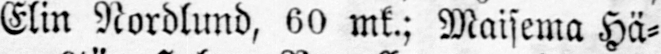Elin Nordlund, 60 mk.; Maisema Hä-
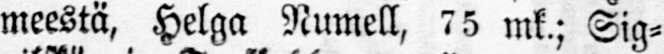meestä, Helga Numell, 75 mk.; Sig-
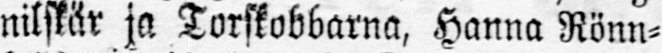nilskär ja Torskobbarna, Hanna Rönn-
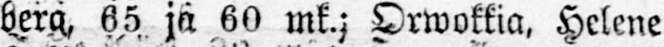berg, 65 ja 60 mk.; Orwokkia, Helene
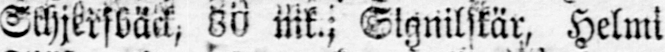Schjerfbäck, 80 mk.; Slgnilskär, Helmi
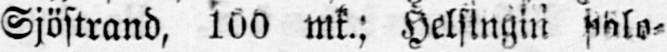Sjöstrand, 100 mk.; Helslngin palo-
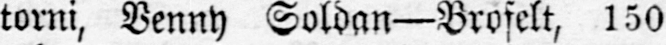torni, Venny Soldan —Brofelt, 150
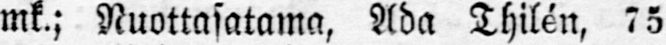mk.; Nuottasatama, Ada Thilén, 75
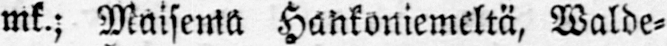mk.; Maisema Hankoniemeltä, Walde-
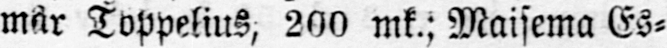mar Toppelius, 200 mk.; Maisema Es-
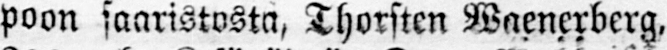poon saaristosta, Thorsten Waenerberg,
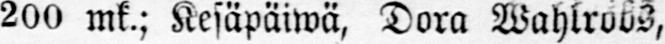200 mk.; Kesäpäiwä, Dora Wahlroos,
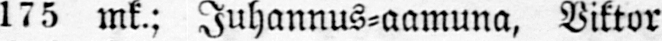175 mk.; Juhannus-aamuna, Viktor
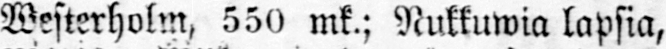Westerholm, 550 mk.; Nukkuwia lapsia,
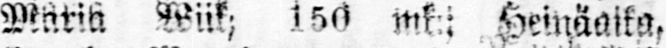Maria Wiik; 150 mk,; Heinäaika,
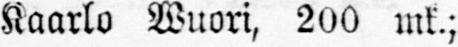Kaarlo Wuori, 200 mk.; Runebergin
